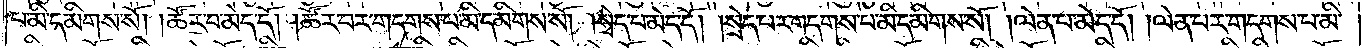པ་མི་དམིགས་སོ། །ཚོར་བ་མེད་དོ། །ཚོར་བར་གདགས་པ་མི་དམིགས་སོ། །སྲེད་པ་མེད་དོ། །སྲེད་པར་གདགས་པ་མི་དམིགས་སོ། །ལེན་པ་མེད་དོ། །ལེན་པར་གདགས་པ་མི་
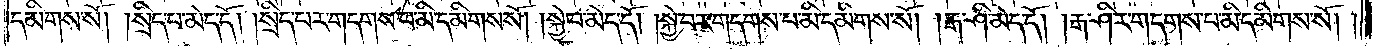དམིགས་སོ། །སྲིད་པ་མེད་དོ། །སྲིད་པར་གདགས་པ་མི་དམིགས་སོ། །སྐྱེ་བ་མེད་དོ། །སྐྱེ་བར་གདགས་པ་མི་དམིགས་སོ། །རྒ་ཤི་མེད་དོ། །རྒ་ཤིར་གདགས་པ་མི་དམིགས་སོ། །
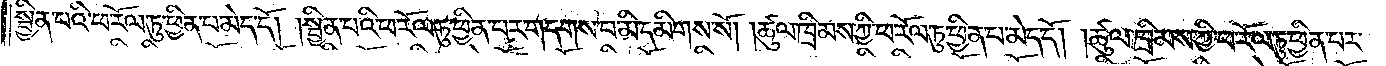སྦྱིན་པའི་ཕ་རོལ་ཏུ་ཕྱིན་པ་མེད་དོ། །སྦྱིན་པའི་ཕ་རོལ་ཏུ་ཕྱིན་པར་གདགས་པ་མི་དམིགས་སོ། །ཚུལ་ཁྲིམས་ཀྱི་ཕ་རོལ་ཏུ་ཕྱིན་པ་མེད་དོ། །ཚུལ་ཁྲིམས་ཀྱི་ཕ་རོལ་ཏུ་ཕྱིན་པར་
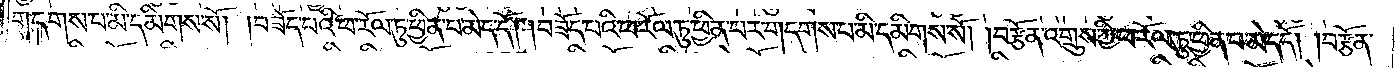གདགས་པ་མི་དམིགས་སོ། །བཟོད་པའི་ཕ་རོལ་ཏུ་ཕྱིན་པ་མེད་དོ། །བཟོད་པའི་ཕ་རོལ་ཏུ་ཕྱིན་པར་གདགས་པ་མི་དམིགས་སོ། །བརྩོན་འགྲུས་ཀྱི་ཕ་རོལ་ཏུ་ཕྱིན་པ་མེད་དོ། །བརྩོན་
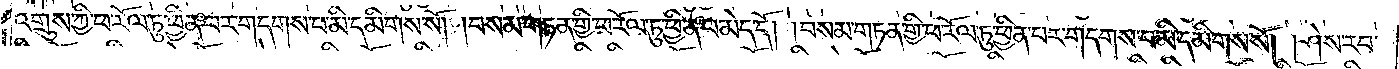འགྲུས་ཀྱི་ཕ་རོལ་ཏུ་ཕྱིན་པར་གདགས་པ་མི་དམིགས་སོ། །བསམ་གཏན་གྱི་ཕ་རོལ་ཏུ་ཕྱིན་པ་མེད་དོ། །བསམ་གཏན་གྱི་ཕ་རོལ་ཏུ་ཕྱིན་པར་གདགས་པ་མི་དམིགས་སོ། །ཤེས་རབ་
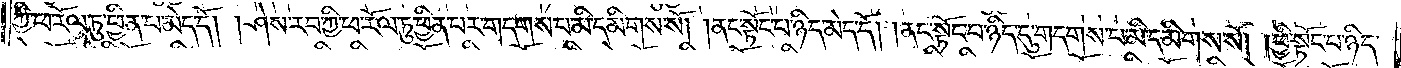ཀྱི་ཕ་རོལ་ཏུ་ཕྱིན་པ་མེད་དོ། །ཤེས་རབ་ཀྱི་ཕ་རོལ་ཏུ་ཕྱིན་པར་གདགས་པ་མི་དམིགས་སོ། །ནང་སྟོང་པ་ཉིད་མེད་དོ། །ནང་སྟོང་པ་ཉིད་དུ་གདགས་པ་མི་དམིགས་སོ། །ཕྱི་སྟོང་པ་ཉིད་
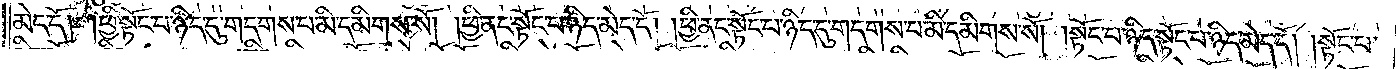མེད་དོ། །ཕྱི་སྟོང་པ་ཉིད་དུ་གདགས་པ་མི་དམིགས་སོ། །ཕྱི་ནང་སྟོང་པ་ཉིད་མེད་དོ། །ཕྱི་ནང་སྟོང་པ་ཉིད་དུ་གདགས་པ་མི་དམིགས་སོ། །སྟོང་པ་ཉིད་སྟོང་པ་ཉིད་མེད་དོ། །སྟོང་པ་
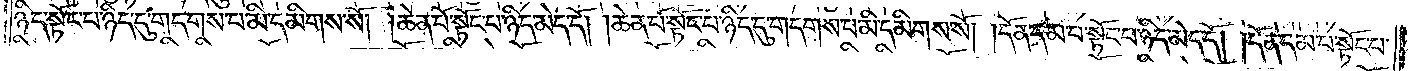ཉིད་སྟོང་པ་ཉིད་དུ་གདགས་པ་མི་དམིགས་སོ། །ཆེན་པོ་སྟོང་པ་ཉིད་མེད་དོ། །ཆེན་པོ་སྟོང་པ་ཉིད་དུ་གདགས་པ་མི་དམིགས་སོ། །དོན་དམ་པ་སྟོང་པ་ཉིད་མེད་དོ། །དོན་དམ་པ་སྟོང་པ་
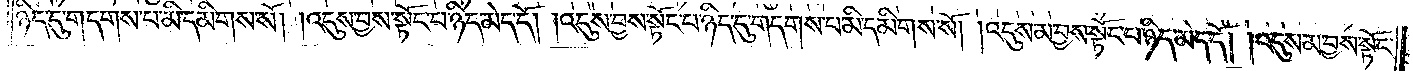ཉིད་དུ་གདགས་པ་མི་དམིགས་སོ། །འདུས་བྱས་སྟོང་པ་ཉིད་མེད་དོ། །འདུས་བྱས་སྟོང་པ་ཉིད་དུ་གདགས་པ་མི་དམིགས་སོ། །འདུས་མ་བྱས་སྟོང་པ་ཉིད་མེད་དོ། །འདུས་མ་བྱས་སྟོང་
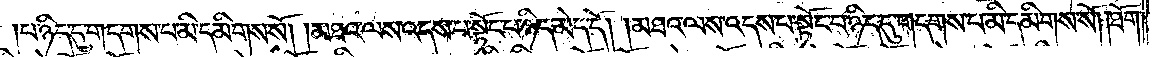པ་ཉིད་དུ་གདགས་པ་མི་དམིགས་སོ། །མཐའ་ལས་འདས་པ་སྟོང་པ་ཉིད་མེད་དོ། །མཐའ་ལས་འདས་པ་སྟོང་པ་ཉིད་དུ་གདགས་པ་མི་དམིགས་སོ། །ཐོག་
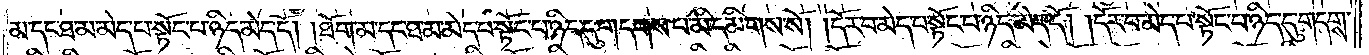མ་དང་ཐ་མ་མེད་པ་སྟོང་པ་ཉིད་མེད་དོ། །ཐོག་མ་དང་ཐ་མ་མེད་པ་སྟོང་པ་ཉིད་དུ་གདགས་པ་མི་དམིགས་སོ། །དོར་བ་མེད་པ་སྟོང་པ་ཉིད་མེད་དོ། །དོར་བ་མེད་པ་སྟོང་པ་ཉིད་དུ་གདགས་
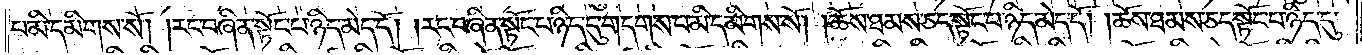པ་མི་དམིགས་སོ། །རང་བཞིན་སྟོང་པ་ཉིད་མེད་དོ། །རང་བཞིན་སྟོང་པ་ཉིད་དུ་གདགས་པ་མི་དམིགས་སོ། །ཆོས་ཐམས་ཅད་སྟོང་པ་ཉིད་མེད་དོ། །ཆོས་ཐམས་ཅད་སྟོང་པ་ཉིད་དུ་
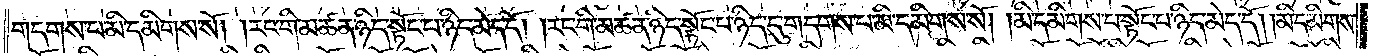གདགས་པ་མི་དམིགས་སོ། །རང་གི་མཚན་ཉིད་སྟོང་པ་ཉིད་མེད་དོ། །རང་གི་མཚན་ཉིད་སྟོང་པ་ཉིད་དུ་གདགས་པ་མི་དམིགས་སོ། །མི་དམིགས་པ་སྟོང་པ་ཉིད་མེད་དོ། །མི་དམིགས་
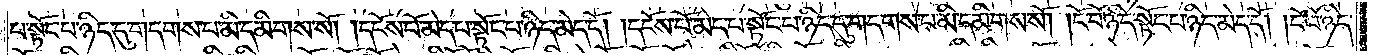པ་སྟོང་པ་ཉིད་དུ་གདགས་པ་མི་དམིགས་སོ། །དངོས་པོ་མེད་པ་སྟོང་པ་ཉིད་མེད་དོ། །དངོས་པོ་མེད་པ་སྟོང་པ་ཉིད་དུ་གདགས་པ་མི་དམིགས་སོ། །ངོ་བོ་ཉིད་སྟོང་པ་ཉིད་མེད་དོ། །ངོ་བོ་ཉིད་
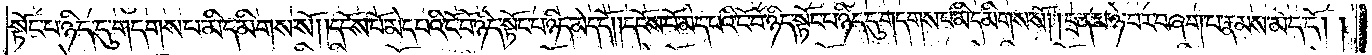སྟོང་པ་ཉིད་དུ་གདགས་པ་མི་དམིགས་སོ། །དངོས་པོ་མེད་པའི་ངོ་བོ་ཉིད་སྟོང་པ་ཉིད་མེད་དོ། །དངོས་པོ་མེད་པའི་ངོ་བོ་ཉིད་སྟོང་པ་ཉིད་དུ་གདགས་པ་མི་དམིགས་སོ། །དྲན་པ་ཉེ་བར་བཞག་པ་རྣམས་མེད་དོ། །
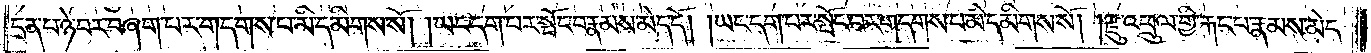དྲན་པ་ཉེ་བར་བཞག་པར་གདགས་པ་མི་དམིགས་སོ། །ཡང་དག་པར་སྤོང་བ་རྣམས་མེད་དོ། །ཡང་དག་པར་སྤོང་བར་གདགས་པ་མི་དམིགས་སོ། །རྫུ་འཕྲུལ་གྱི་རྐང་པ་རྣམས་མེད་
